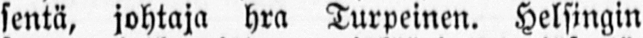sentä, johtaja hra Turpeinen. Helsingin
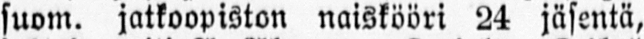suom, jatkoopiston naiskööri 24 jäsentä,
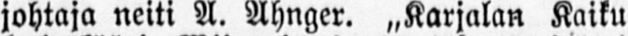johtaja neiti A. Ahnger. „Karjalan Kaiku"
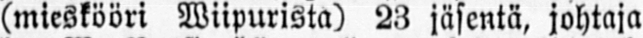(mieskööri Wiipurista) 23 jäsentä, johtaja
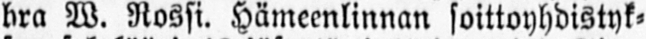hra W. Rossi. Hämeenlinnan soittoyhdistyk-
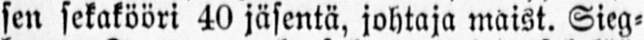sen sekakööri 40 jäsentä, johtaja maist. Sieg-
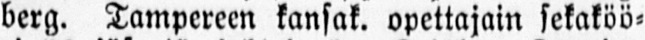berg. Tampereen kansak. opettajain sekaköö-
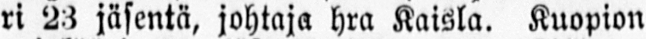ri 28 jäsentä, johtaja hra Kaisla. Kuopion
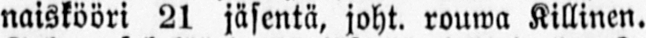naiskööri 21 jäsentä, joht. rouwa Killinen.
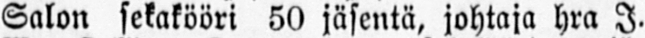Salon sekakööri 50 jäsentä, johtaja hra I.
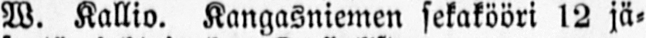W. Kallio. Kangasniemen sekakööri 12 jä-
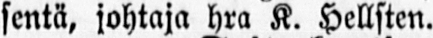sentä, johtaja hra K. Hellsten.
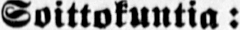Soittokuntia:
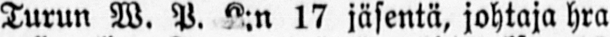Turun W. P. K:n 17 jäsentä, johtaja hra
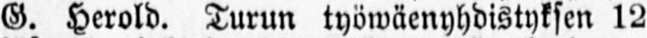G. Herald. Turun työwäenyhdistykscn 12
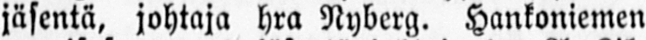jäsentä, johtaja hra Nyberg. Hankoniemen
